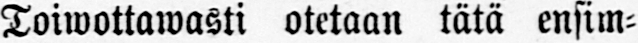Toiwottawasti otetaan tätä ensim-
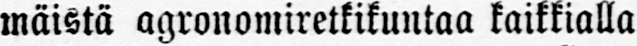mäistä agronomiretkikuntaa kaikkialla
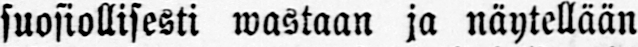suosiollisesti wastaan ja näytellään
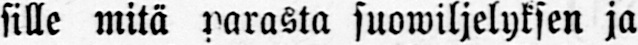sille mitä parasta suowiljelyksen ja
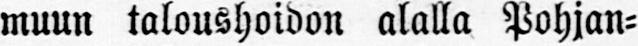muun taloushoidon alalla Pohjan-
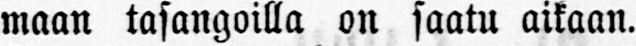maan tasangoilla on saatu aikaan.
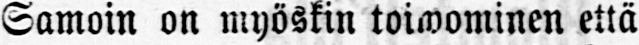Samoin on myöskin toiwominen että
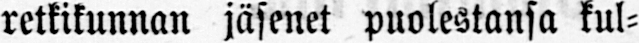retkikunnan jäsenet puolestansa kul-
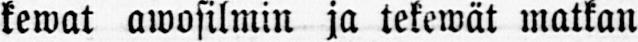kewat awosilmin ja tekewät matkan
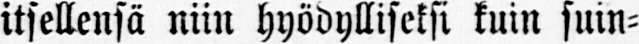itsellensä niin hyödylliseksi kuin suin-
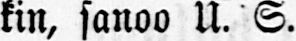kin, sanoo U. S.
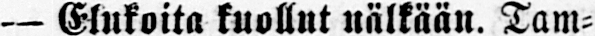— Elukoita kuollut nälkään. Tam-
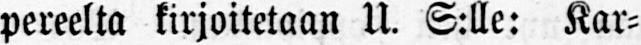pereelta kirjoitetaan U. S:lle: Kar-
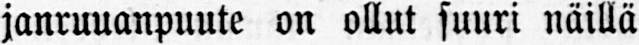janruuanpuute on ollut suuri näillä
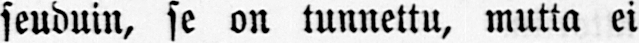seuduin, se on tunnettu, mutta ei
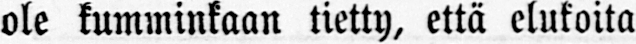ole kumminkaan tietty, että elukoita
